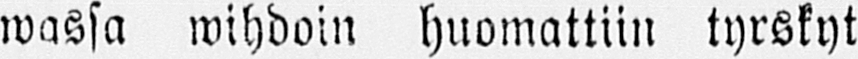wassa wihdoin huomattiin tyrskyt
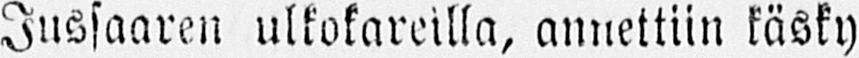Jussaaren ulkokareilla, annettiin käsky
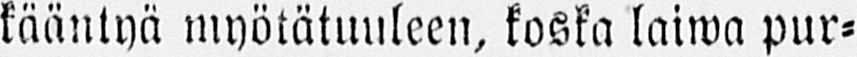kääntyä myötätunleen, koska laiwa pur-
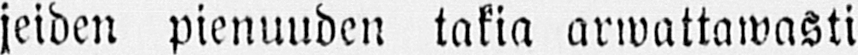jeiden pienuuden takia arwattawasti
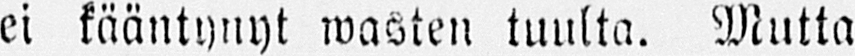ei kääntynyt wasten tuulta. Mutta
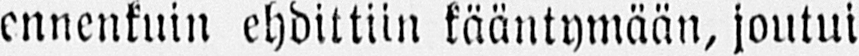ennenkuin ehdittiin kääntymään, joutui
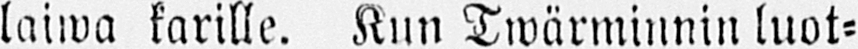laiwa karille. Kun Twärminnin luot-
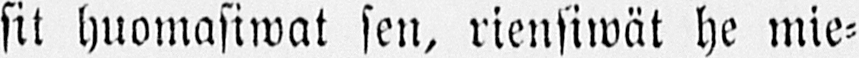sit huomasiwat sen, riensiwät he mie-
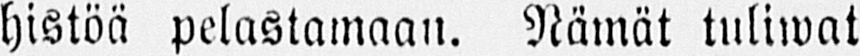histöä pelastamaan. Nämät tuliwat
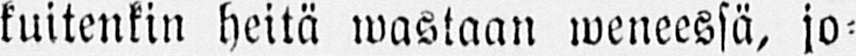kuitenkin heitä wastaan weneessä, jo-
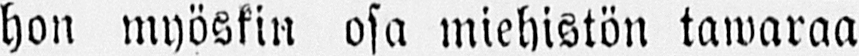hon myöskin osa miehistön tawaraa
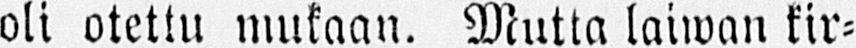oli otettu mukaan. Mutta laiwan kir-
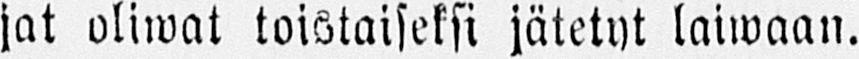jat oliwat toistaiseksi jätetyt laiwaan.
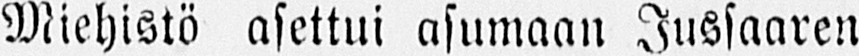Miehistö asettui asumaan Jussaaren
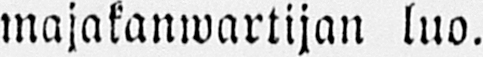majakanwartijan luo.
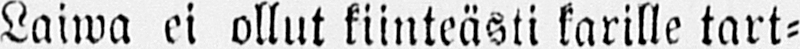Laiwa ei ollut kiinteästi karille tart-
